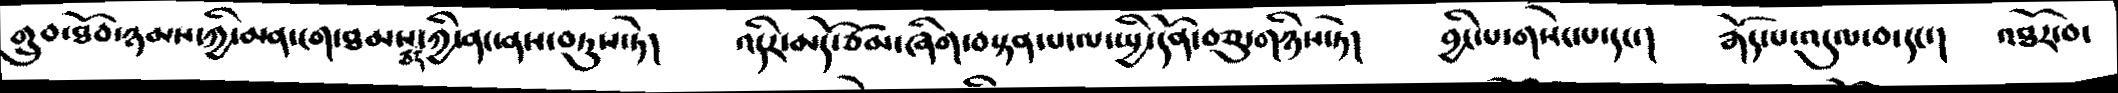གྲུབ་ཐོབ་ཉམས་ཀྱི་མན་ངག་ཐམས་ཅད་ཀྱི་ནང་ནས་བཏུས་ཏེ།    འདིར་མདོ་ཙམ་ཞིག་བསྟན་པ་ལ་སྤྱི་དོན་བཅུ་གཉིས་ཏེ།    བྱིང་པ་གསེང་པ་དང་།   རྒོད་པ་འདུལ་བ་དང་།   འཐོར་བ་
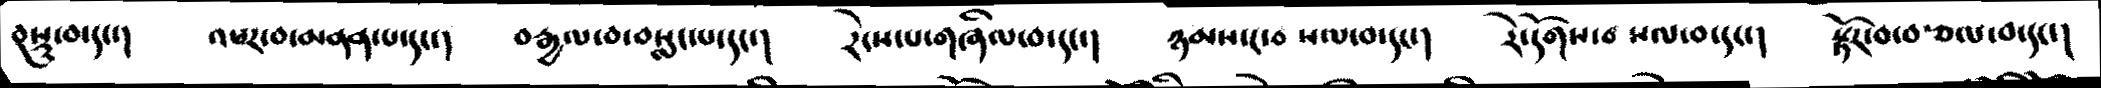བསྡུ་བ་དང་།    འཕར་བ་མནན་པ་དང་།    བརྒྱལ་བ་བསླང་པ་དང་།   རེངས་པ་གཞིལ་བ་དང་།   ཉམས་ང་བ སལ་བ་དང་།    རེ་དོགས་བ སལ་བ་དང་།   སྟོར་བ་བརྩལ་བ་དང་།
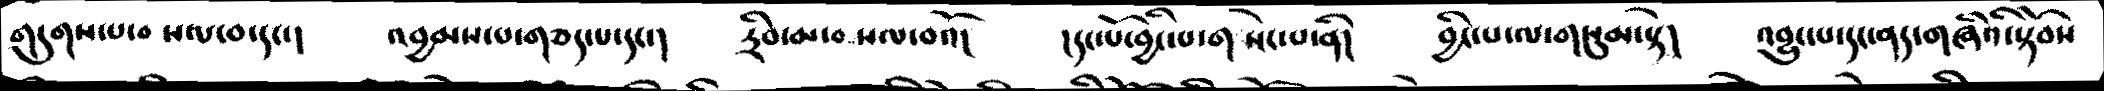གདུགས་པ་བ སལ་བ་དང་།    འབྱམས་པ་གཅད་པ་དང་།      དྲིབ་མ་བ སལ་བའོ།     །དང་པོ་བྱིང་པ་གསེང་པ་ནི།    བྱིང་པ་ལ་གསུམ་སྟེ།    འབྱུང་པ་དང་ནད་གཞིའི་སྟོབས
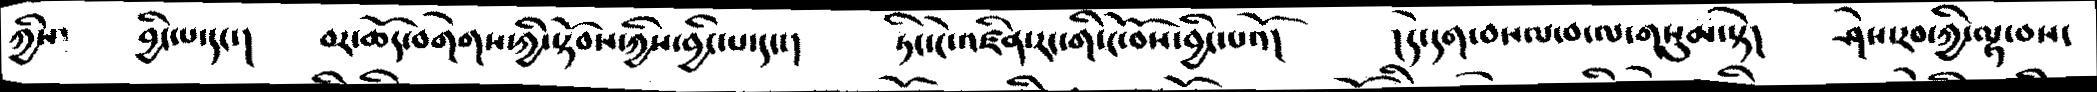ཀྱིས་    བྱིང་པ་དང་།    བར་ཆོད་བགེགས་ཀྱི་སྟོབས་ཀྱིས་བྱིང་པ་དང་།    ཏིང་ངེ་འཛིན་རང་གི་ངོ་བོས་བྱིང་པའོ།     །དེ་དག་བསལ་བ་ལ་གསུམ་སྟེ།    ཤེས་རབ་ཀྱི་ལྟ་བས་
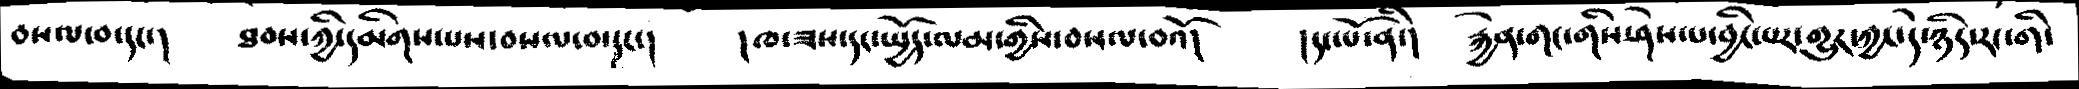བསལ་བ་དང་།    ཐབས་ཀྱི་དམིགས་པས་བསལ་བ་དང་།    །ཁ་ཟས་དང་སྤྱོད་ལམ་གྱིས་བསལ་བའོ།    །དང་པོ་ནི་།   རྐྱེན་གང་གིས་ཤེས་པ་བྱིང་པར་གྱུར་ཀྱང་དེ་ཉིད་རང་གི་
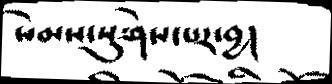སེམས་སུ་ཤེས་པར་བྱ།
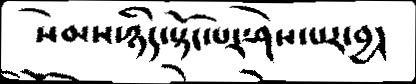སེམས་ཉིད་སྟོང་པར་ཤེས་པར་བྱ།
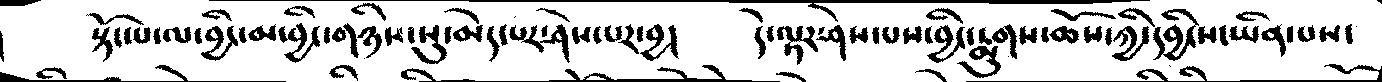སྟོང་པ་ལ་བྱིང་མ་བྱིང་གཉིས་སུ་མེད་པར་ཤེས་པར་བྱ།    དེ་ལྟར་ཤེས་པས་བྱིང་རྨུགས་ཆོས་ཀྱི་དབྱིངས་ཡིན་པས་
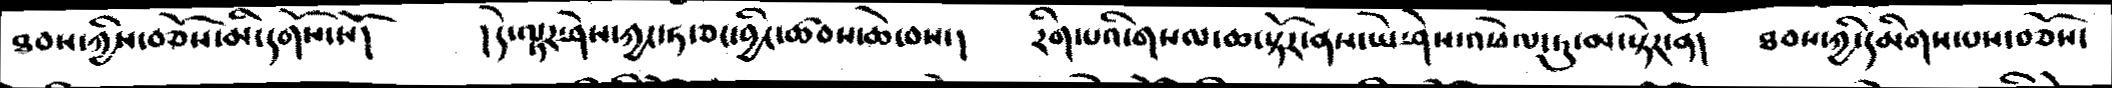ཐབས་ཀྱིས་བཅོས་མི་དགོས་སོ།     །དེ་ལྟར་ཤེས་ཀྱང་ཧ་ཅང་བྱིང་ཚབས་ཆེ་བས་།    རིག་པའི་གསལ་ཆ་སྟོར་ནས་ཡེ་ཤེས་འཕེལ་ཏུ་མ་སྟེར་ན།   ཐབས་ཀྱི་དམིགས་པས་བཅོས་
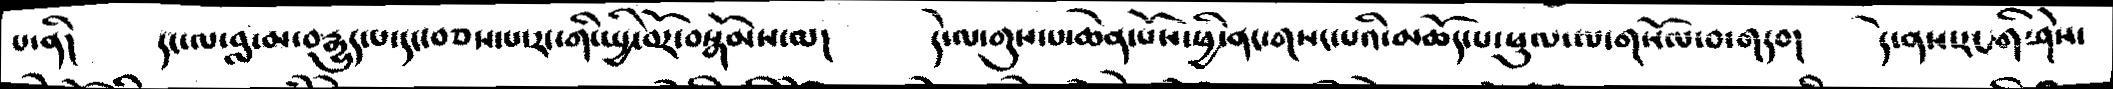པ་ནི།    དང་ལ་བླ་མ་བརྒྱུད་པ་དང་བཅས་པ་རང་གི་སྤྱི་བོར་བསྒོམས་ལ།    དེ་ལ་གུས་པ་ཆེན་པོས་ཕྱི་ནང་གསང་པའི་མཆོད་པ་ཕུལ་ལ་གསོལ་བ་གདབ་།   དེ་ནས་རང་གི་ཤེས་
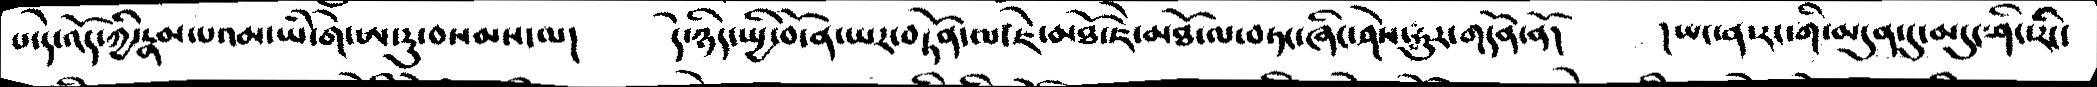པ་དེ་འོད་ཀྱི་རྣམ་པའམ་ཡི་གེ་ཨ་རུ་བསམས་ལ།     དེ་ཉིད་སྤྱི་བོ་ན་ཡར་བཏོན་ལ་ཇེ་མཐོ་ཇེ་མཐོ་ལ་བཏང་ཞིང་ཤེས་ཧུར་གདོན་ནོ།    །ཡང་ན་རང་གི་མདུན་དུ་མདུང་ཤིང་རིང་
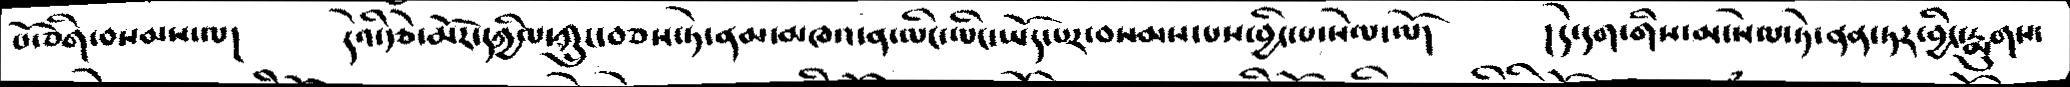པོ་ཅིག་བསམས་ལ།    དེའི་རྩེ་མོར་དཀྱིལ་ཀྲུང་བཅས་ཏེ་ནམ་མཁའ་ན་ལིང་ལིང་ཡོད་པར་བསམས་པས་བྱིང་པ་སེལ་ལོ།    །དེ་དག་གིས་མ་སེལ་ཏེ་ནན་ཏར་བྱིང་རྨུགས་
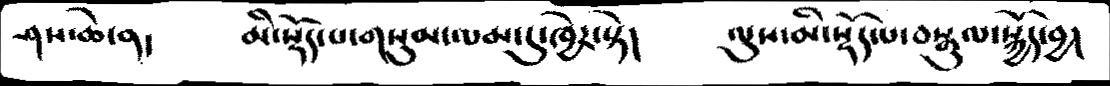ཤས་ཆེ་ན།    མི་སྡོད་པ་གསུམ་ལམ་དུ་ཁྱེར་སྟེ།    ལུས་མི་སྡོད་པ་བསྒུལ་སྐྱོད་བྱ།
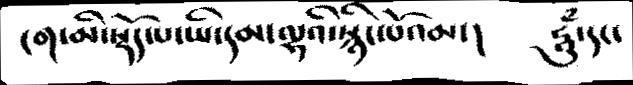ངག་མི་སྡོད་པ་ཡི་དམ་ལྷའི་སྙིང་པོའམ་།    ཧཱུྃ་དང་
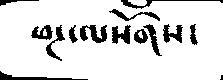ཕཊ་ལསོགས་
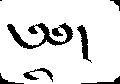༄༅།
